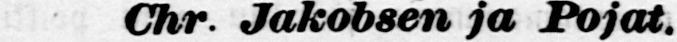Chr. Jakobsen ja Pojat.
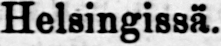Helsingissä.
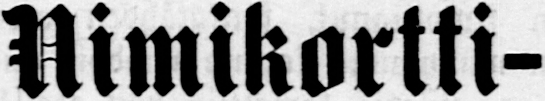Nimikortti-
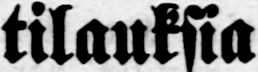tilauksia
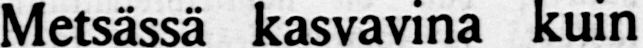Metsässä kasvavina kuin
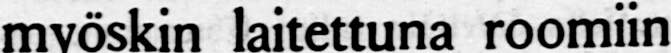myöskin laitettuna roomiin
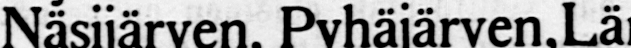Näsijärven, Pyhäjärven, Län-
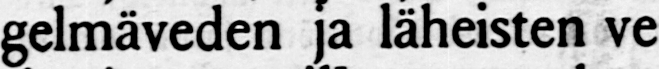gelmäveäen ja läheisten ve-
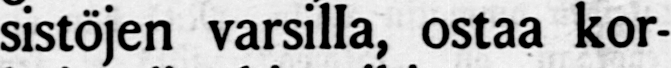sistöjen varsilla, ostaa kor-
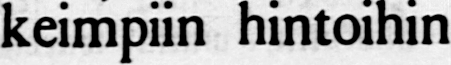keimpiin hintoihn
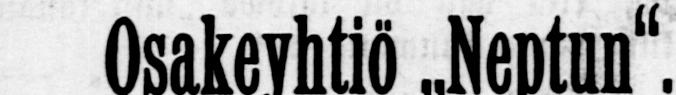Osakeyhtiö ˶Neptun".
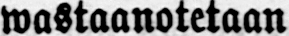wastaanotetaan
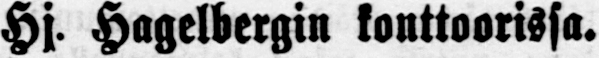Hj. Hagelbergin konttoorissa.
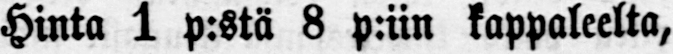Hinta 1 p:sta 8 p:iin kappaleelta,
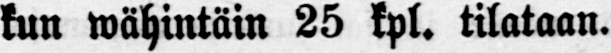kun wähintäin 25 kpl. tlataan.
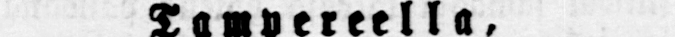Tampereella,
